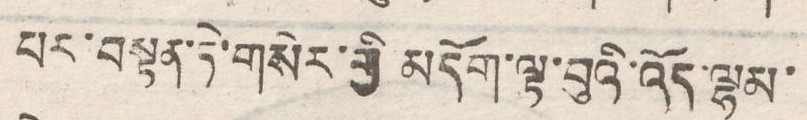པར་བསྟན་ཏེ་གསེར་གྱི མདོག་ལྟ་བུའི་འོད་ལྷམ་
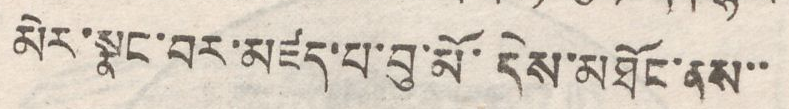མེར་སྣང་བར་མཛད་པ་བུ་མོ་དེས་མཐོང་ནས་་
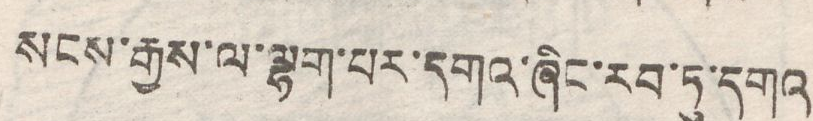སངས་རྒྱས་ལ་ལྷག་པར་དགའ་ཞིང་རབ་ཏུ་དགའ
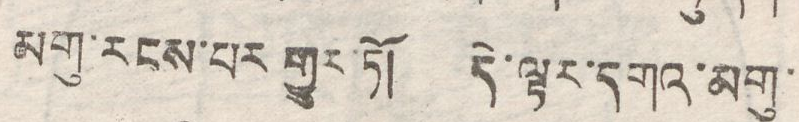མགུ་རངས་པར གྱུར་ཏོ། དེ་ལྟར་དགའ་མགུ་
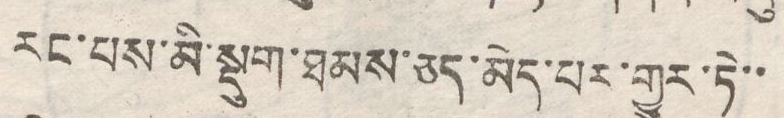རང་བས་མི་སྡུག་ཐམས་ཅད་མེད་པར་གྱུར་ཏེ་་
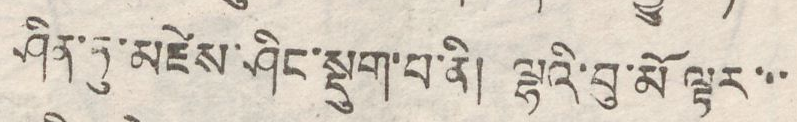ཤིན་ཏུ་མཛེས་ཤིང་སྡུག་པ་ནི། ལྷའི་བུ་མོ ལྟར་་་
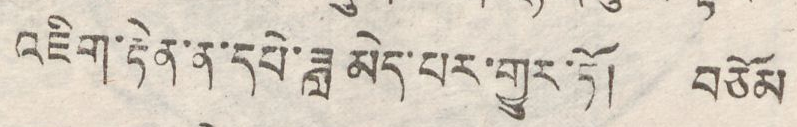འཇིག་རྟེན་ན་དཔེ་ཟླ མེད་པར་གྱུར་ཏོ། བཅོམ
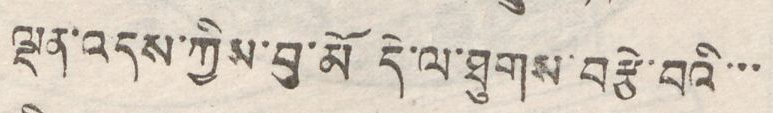ལྡན་འདས་ཀྱིས་བུ་མོ དེ་ལ་ཐུགས་བརྩེ་བའི་་་
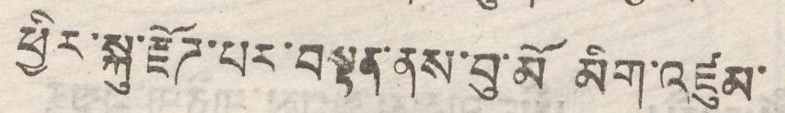ཕྱིར་སྐུ་རྫོཌ་པར་བསྟན་ནས་བུ་མོ མིག་འཛུམ་
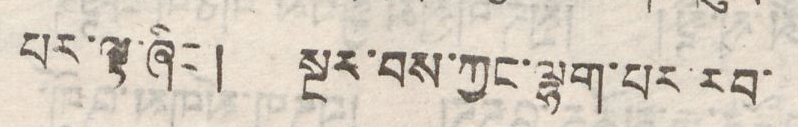པར་ལྟ་ཞིང་། སྔར་བས་ཀྱང་ལྷག་པར་རབ་
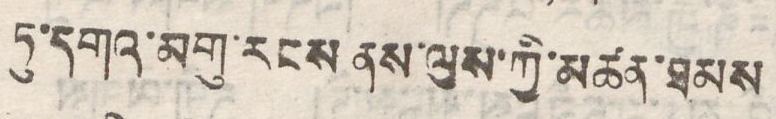ཏུ་དགའ་མགུ་རངས ནས་ལུས་ཀྱི་མཚན་ཐམས
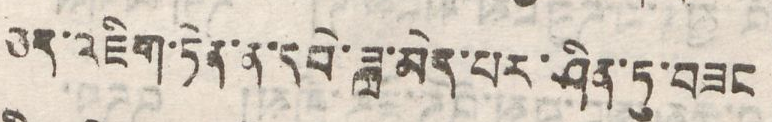ཅད་འཇིག་ཏེན་ན་དབེ་ཟླ་མེད་པར་ཤིན་ཏུ་བཟང
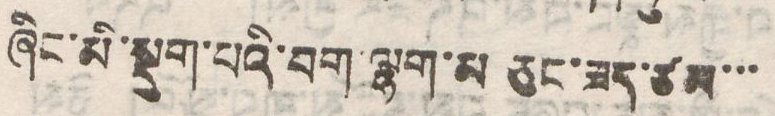ཞིང་མི་སྡུག་པའི་བག་ལྷག་མ ཅུང་ཟད་ཙམ་་་
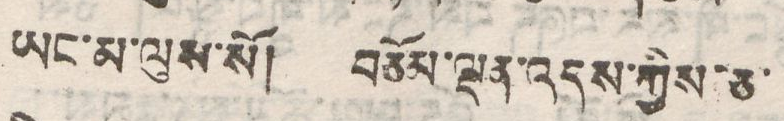ཡང་མ་ལུས་སོ། བཅོམ་ལྡན་འདས་ཀྱིས་ཅ་
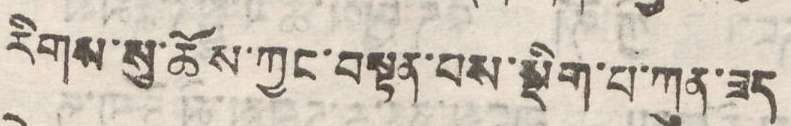རིགས་སུ་ཆོས་ཀྱང་བསྟན་པས་སྡིག་པ་ཀུན་ཟད
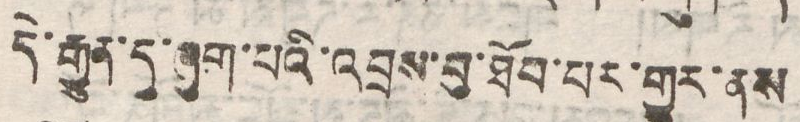དེ་རྒྱུན་དུ་ཞུག་པའི་འབྲས་བུ་ཐོབ་པར་གྱུར་ནས་
